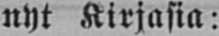nyt Kirjasia:
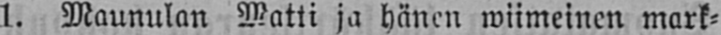1. Maunulan Matti ja hänen wiimeinen mark-
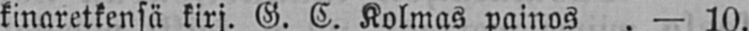kinaretkensä kirj. G. C. Kolmas painos — 10.
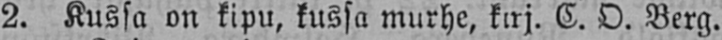2. Kussa on tipu, kussa murhe, kirj, C. O. Berg.
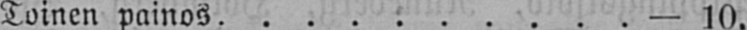Toinen painos,- 10.
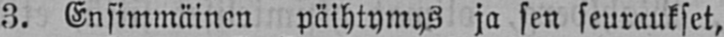3. Ensimmäinen päihtymys ja sen seuraukset,
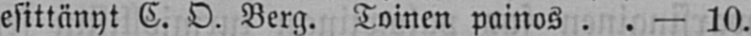esittänyt C. O. Berg. Toinen painos— 10.
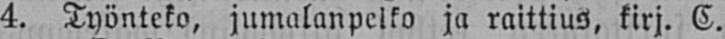4. Työnteko, jumalanpelko ja raittius, kirj. C.
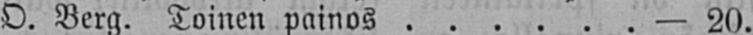O. Berg. Toinen painos — 20.
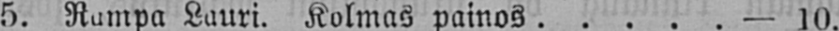5. Rampa Lauri, Kolmas painos - 10.
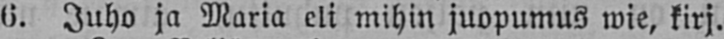6. Juho ja Maria eli mihin juopumus wie, kirj.
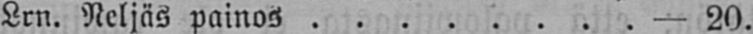Lrn. Neljäs painos — 20.
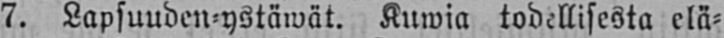7. Lapsuuden-ystäwät. Kuwia todellisesta elä-
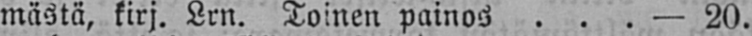mästä, kirj. Lrn. Toinen painos — 20.
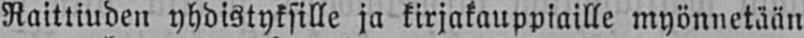Raittiuden yhdistyksille ja kirjakauppiaille myönnetään
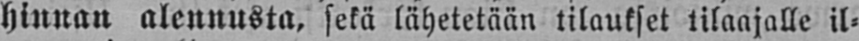hinnan alennusta, sekä lähetetään tilaukset tilaajalle il-
